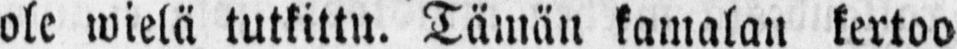ole wielä tutkittu. Tämän kamalan kertoo
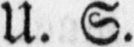U. S.
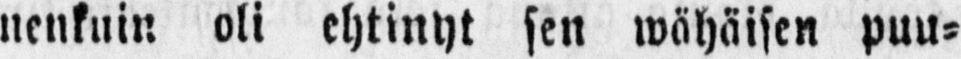nenkuin oli ehtinyt sen wähäisen puu-
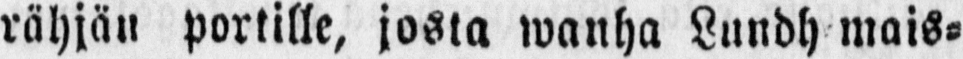rähjän portille, josta wanha Lundh mais-
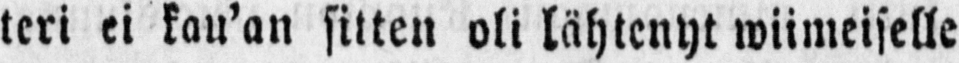teri ei kau'an sitten oli lähtenyt wiimeiselle
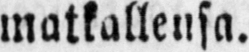matkallensa.
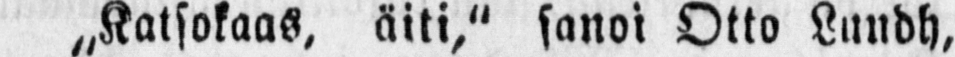Katsokaas, äiti," sanoi Otto Lundh,
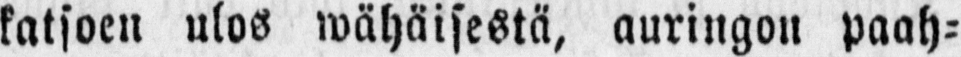katsoen ulos wähäisestä, auringon paah-
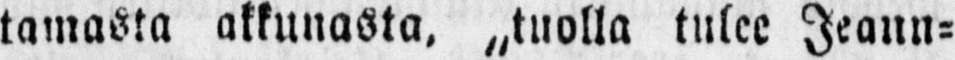tamasta akkunasta, tulee Jeann-
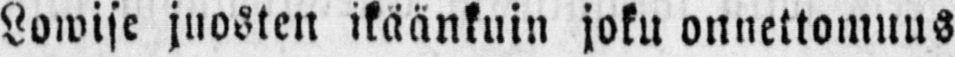Lowise juosten ikäänkuin joku onnettomuus
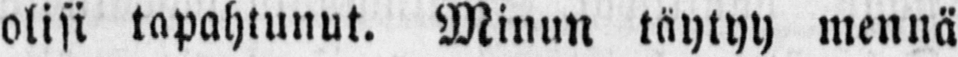olisi tapahtunut. Minun täytyy mennä
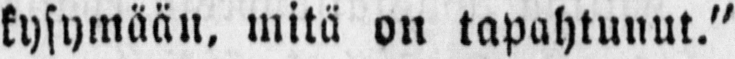kysymään, mitä on tapahtunut."
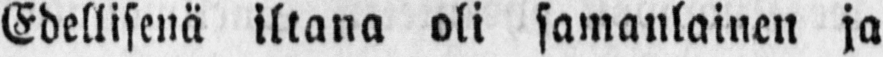Edellisenä iltana oli samanlainen ja
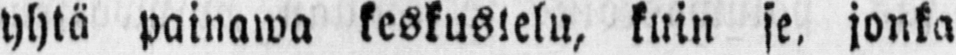yhtä painawa keskustelu, kuin se, jonka
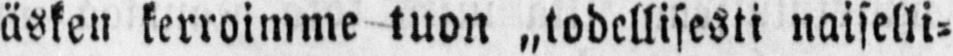äsken kerroimme tuon ˶todellisesti naiselli-
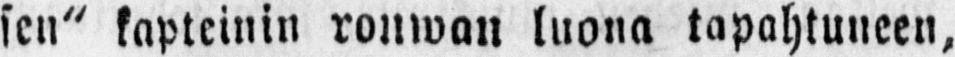sen" kapteinin rouwan luona tapahtuneen,
